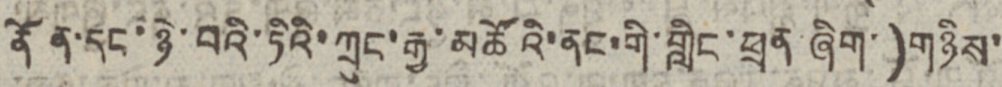ནོན་དང་ཉེ་བའི་ཏིའི་ཀྲུང་རྒྱ་མཚོའི་ནང་གི་གླིང་ཕྲན་ཞིག་)གཉིས་
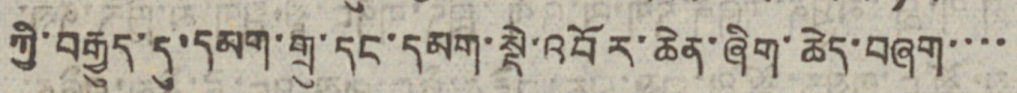ཀྱི་བརྒྱུད་དུ་དམག་གྲུ་དང་དམག་སྡེ་འབོར་ཆེན་ཞིག་ཆེད་བཞག་་་་
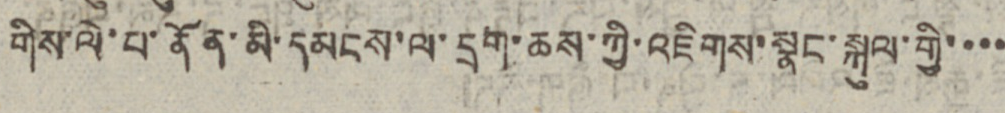གིས་ལེ་པ་ནོན་མི་དམངས་ལ་དྲག་ཆས་ཀྱི་འཇིགས་སྣང་སྐུལ་གྱི་་་་
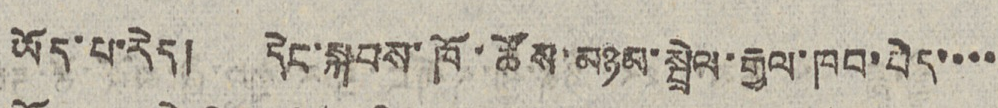ཡོད་པ་རེད། དེང་སྐབས་ཁོ་ཚོས་མཉམ་སྦྲེལ་རྒྱལ་ཁབ་བེད་་་་
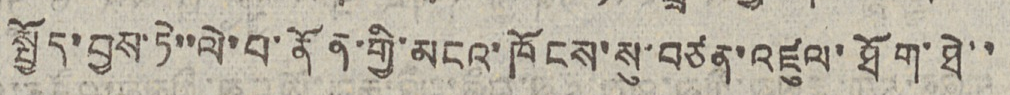སྤྱོད་བྱས་ཏེ་་ལེ་པ་ནོན་གྱི་མངའ་ཁོངས་སུ་བཙན་འཛུལ་ཐོག་ཐེ་་
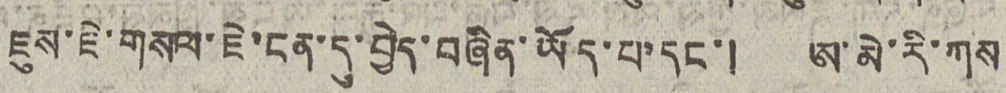ཇུས་ཇི་གསལ་ཇེ་ངན་དུ་བྱེད་བཞིན་ཡོད་པ་དང་། ཨ་མེ་རི་ཀས
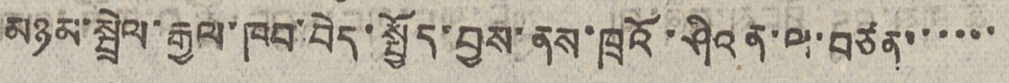མཉམ་སྤྲེལ་རྒྱལ་ཁབ་བེད་སྤྱོད་བྱས་ནས་ཁྲའོ་ཤིའན་ལ་བཙན་་་་་་
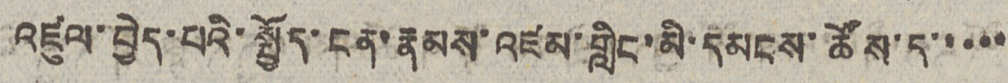འཛུལ་བྱེད་པའི་སྤྱོད་ངན་རྣམས་འཛམ་གླིང་མི་དམངས་ཚོས་ད་་་་་
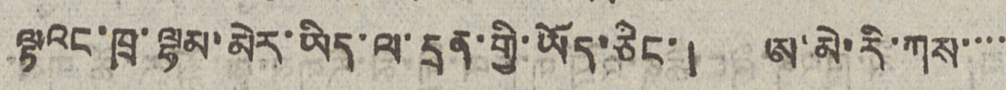ལྟའང་ཁྲ་ལྷམ་མེར་ཡིད་ལ་དྲན་གྱི་ཡོད་ཅིང་། ཨ་མེ་རི་ཀས་་་་
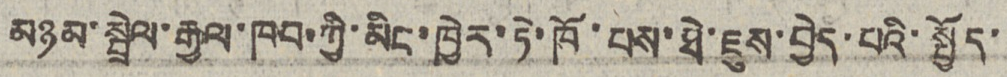མཉམ་སྦྲེལ་རྒྱལ་ཁབ་ཀྱི་མིང་ཁྱེར་ཏེ་ཁོ་པས་ཐེ་ཇུས་བྱེད་པའི་སྤྱོད་
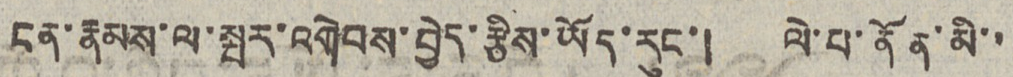ངན་རྣམས་ལ་སྤར་འགེབས་བྱེད་རྩིས་ཡོད་རུང་། ལེ་པ་ནོན་མི་་
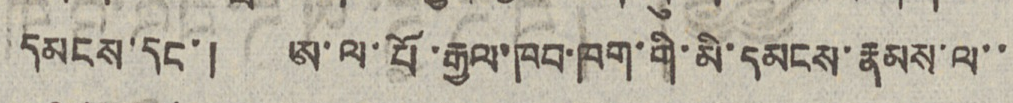དམངས་དང་། ཨ་ལ་པོ་རྒྱལ་ཁབ་ཁག་གི་མི་དམངས་རྣམས་ལ་་
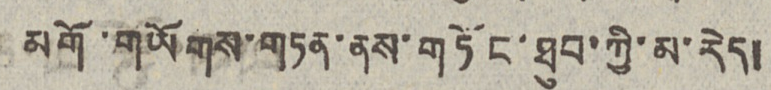མགོ་གཡོགས་གཏན་ནས་གཏོང་ཐུབ་ཀྱི་མ་རེད།
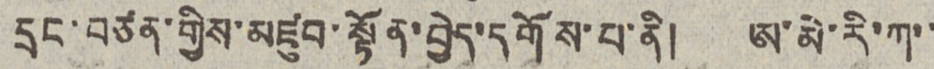དྲག་བརྩན་གྱིས་མཛུབ་སྟོན་བྱེད་དགོས་པ་ནི། ཨ་མེ་རི་ཀ་
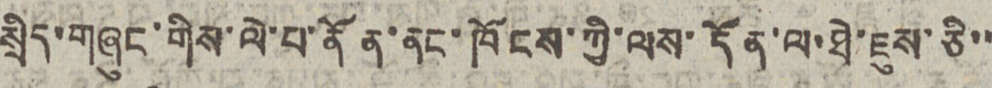སྲིད་གཞུང་གིས་ལེ་པ་ནོན་ནང་ཁོངས་ཀྱི་ལས་དོན་ལ་ཐེ་ཇུས་ཅི་་
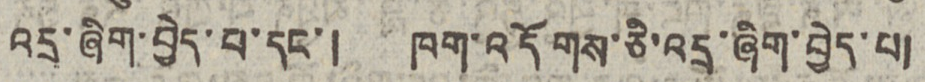འདྲ་ཞིག་བྱེད་པ་དང་། ཁག་འདོགས་ཅི་འདྲ་ཞིག་བྱེད་པ།
